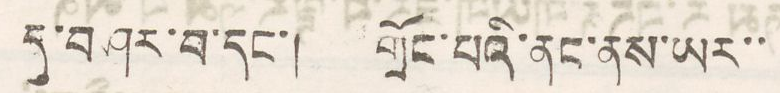དུ་བཤར་བ་དང་། གྲོང་པའི་ནང་ནས་ཡར་་
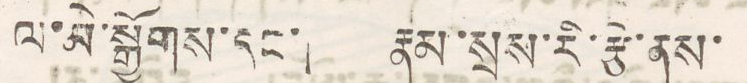ལ་མེ་སྒྱོགས་དང་། རྣམ་སྲས་རི་རྩེ་ནས་
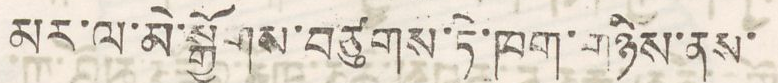མར་ལ་མེ་སྒྱོགས་བཙུགས་ཏེ་ཁག་གཉིས་ནས་
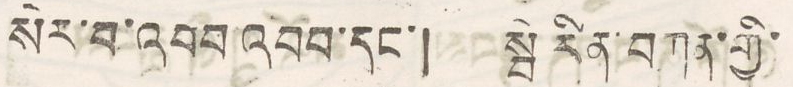སེར་བ་འབབ་འབབ་དང་། སྦེ་རིན་བཀན་གྱི་
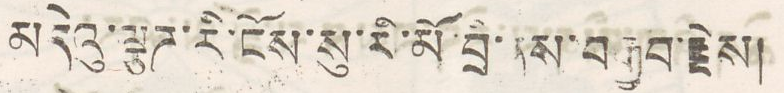མདེའུ་ལྕཌ་རི་ངོས་སུ་རི་མི་བྲི་ནས་བརྒྱབ་རྗེས།
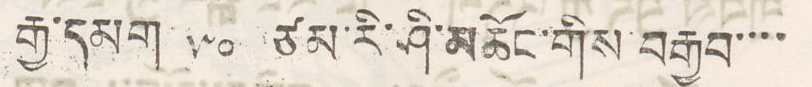རྒྱ་དམག ༥༠ ཙམ་རི་ཤི་མཆོང་གིས་བརྒྱབ་་་་
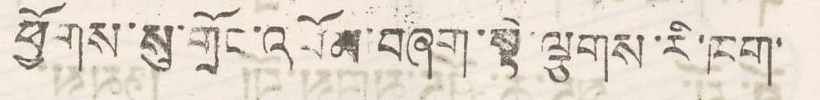ཕྱོགས་སུ་གྲོང་འབོམ་བཞག་སྟེ་ལྕགས་རི་ཁག་
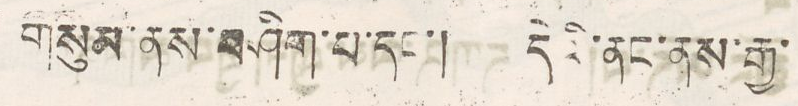གསུམ་ནས་བཤིག་པ་དང་། དེའི་ནང་ནས་རྒྱ་
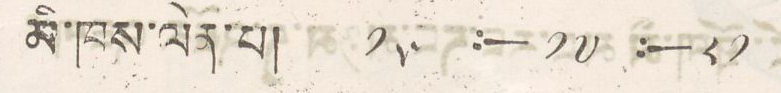་མི་ཁས་ལེན་པ། ༡༥ :—༡༧ :— ༨༡
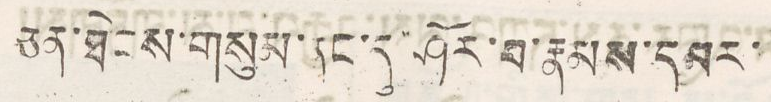ཅན་ཐེངས་གསུམ་ནང་དུ་ཤོར་བ་རྣམས་དམར་
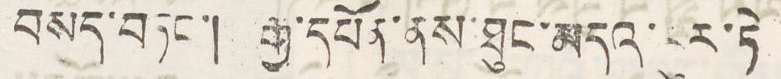བསད་བཏང་། རྒྱ་དཔོན་ནས་ཐུང་མདའ་དུར་ཏེ་
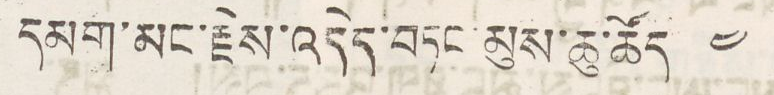དམག་མང་རྗེས་འདེད་བཏང་མུས་ཆུ་ཚོད་ ༤
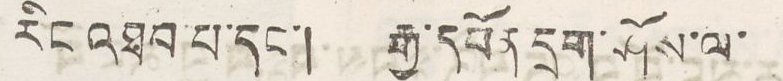རིང་འཐབ་པ་དང་། རྒྱ་དཔོན་དྲག་ཤོས་ལ་
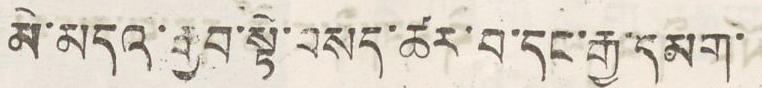མེ་མདའ་རྒྱབ་སྟེ་བསད་ཚར་བ་དང་རྒྱ་དམག་
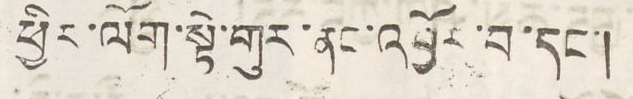ཕྱིར་ལོག་སྟེ་གུར་ནང་འབྱོར་བ་དང་།
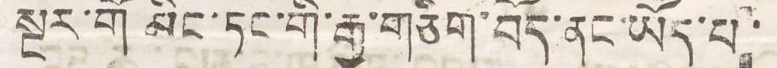སྔར་གོ མིང་ཏང་གི་རྒྱ་གཅིག་བོད་ནང་ཡོད་པ་
